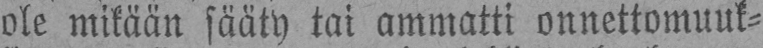ole mikään sääty tai ammatti onnettomuuk-
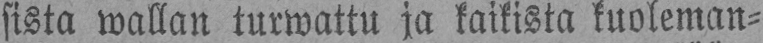sista wallan turwattu ja kaikista kuoleman-
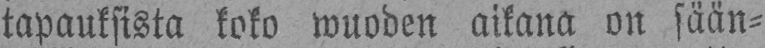tapauksista koko wuoden aikana on sään-
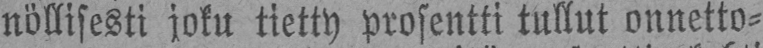nöllisesti joku tietty prosentti tullut onnetto-
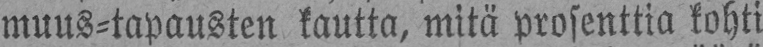muus-tapausten kautta, mitä prosenttia kohti
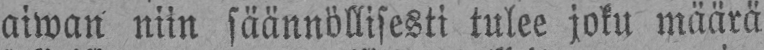aiwan niin säännöllisesti tulee joku määrä
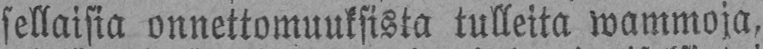sellaisia onnettomuuksista tulleita wammoja,
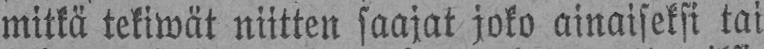mitkä tekiwät niitten saajat joko ainaiseksi tai
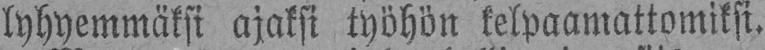lyhyemmäksi ajaksi työhön kelpaamattomiksi.
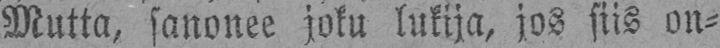Mutta, sanonee joku lukija, jos siis on-
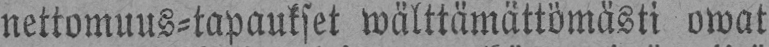nettomuus-tapaukset wälttämättömästi owat
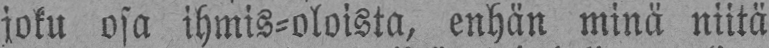joku osa ihmis-oloista, enhän minä niitä
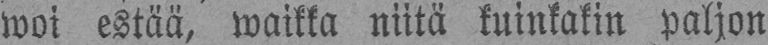woi estää, waikka niitä kuinkakin paljon
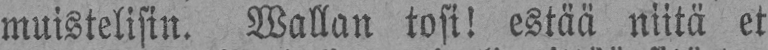muistelisin. Wallan tosi! estää niitä et
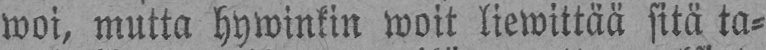woi, mutta hywinkin woit liewittää sitä ta-
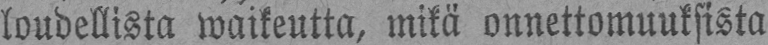loudellista waikeutta, mikä onnettomuuksista
